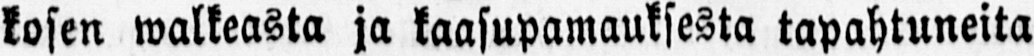kosen walkeasta ja kaasupamauksesta tapahtuneita
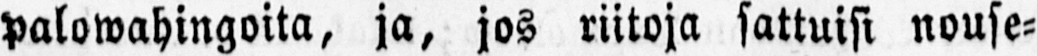palowahingoita, ja, jos riitoja sattuisi nouse-
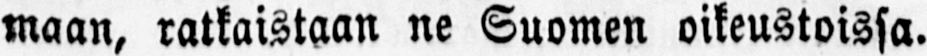maan, ratkaistaan ne Suomen oikeustoissa.
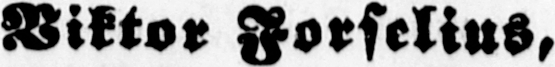Viktor Forselius,
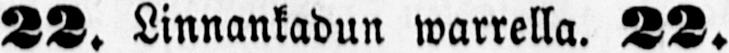22. Linnankadun warrella. 22.
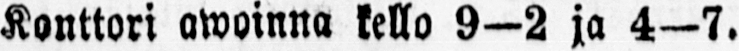Konttori awoinna kello 9—2 ja 4—7.
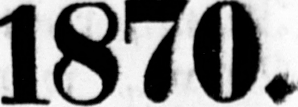1870.
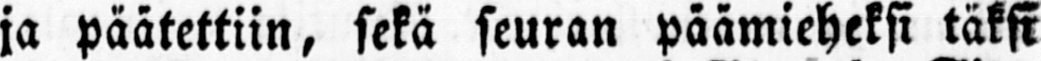ja päätettiin, sekä seuran päämieheksi täksi
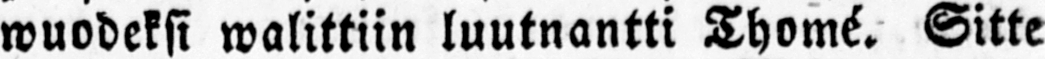wuodeksi walittiin luutnantti Thomé. Sitte
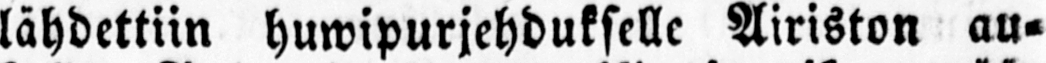lähdettiin huwipurjehdukselle Airiston au-
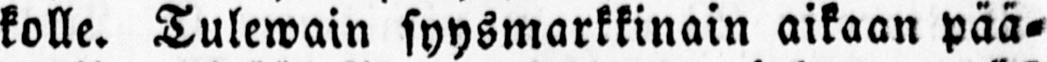kolle. Tulewain syysmarkkinain aikaan pää-
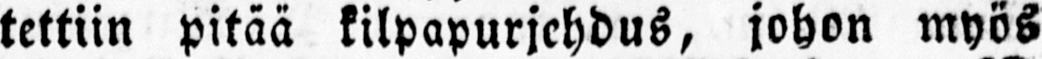tettiin pitää kilpapurjehdus, johon myös
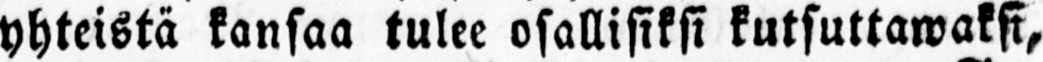yhteistä kansaa tulee osallisiksi kutsuttawaksi,
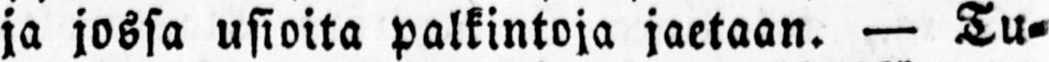ja jossa usioita palkintoja jaetaan. — Tu-
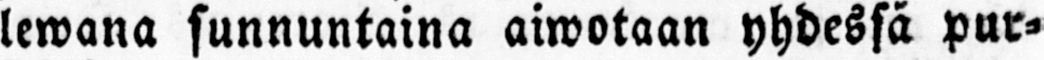lewana sunnuntaina aiwotaan yhdessä pur-
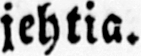jehtia.
